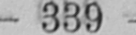- 339 -
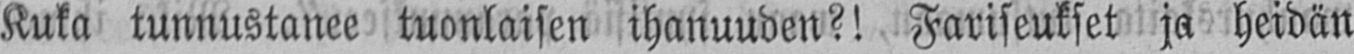Kuka tunnustanee tuonlaisen ihanuuden?! Fariseukset ja heidän
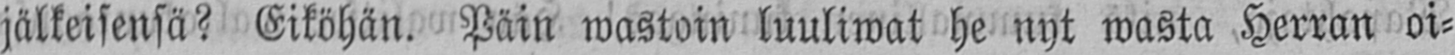jälkeisensä? Eiköhän. Päin wastoin luuliwat he nyt wasta Herran oi-
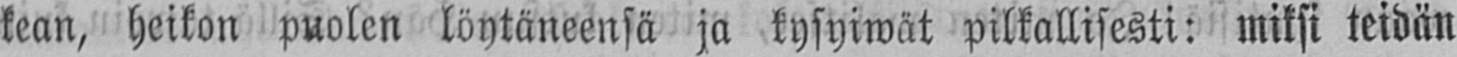kean, heikon puolen löytäneensä ja kysyiwät pilkallisesti: miksi teidän
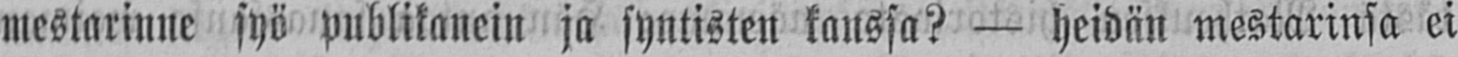mestarinne syö publikanein ja syntisten kanssa? — heidän mestarinsa ei
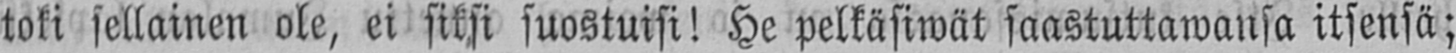toki sellainen ole, ei siksi suostuisi! He pelkäsiwät saastuttawansa itsensä;
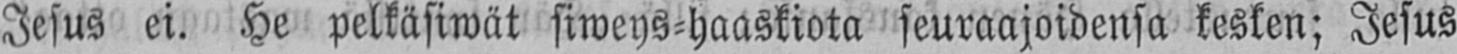Jesus ei. He pelkäsiwät siweys-haaskiota seuraajoidensa kesken; Jesus
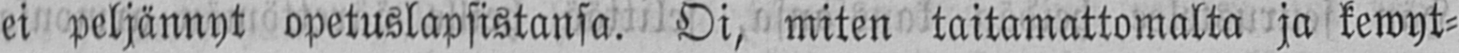ei peljännyt opetuslapsistansa. Oi, miten taitamattomalta ja kewyt-
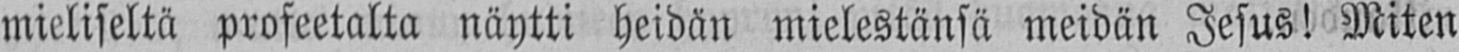mieliseltä profeetalta näytti heidän mielestänsä meidän Jesus! Miten
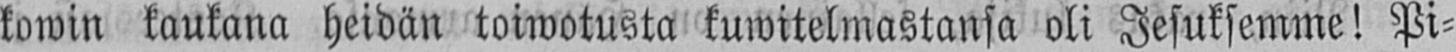kowin kaukana heidän toiwotusta kuwitelmastansa oli Jesuksemme! Pi-
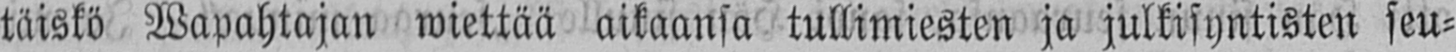täiskö Wapahtajan wiettää aikaansa tullimiesten ja julkisyntisten seu-
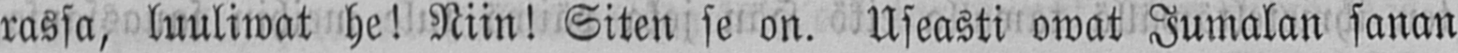rassa, luuliwat he! Niin! Siten se on. Useasti owat Jumalan sanan
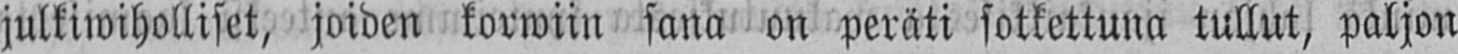julkiwiholliset, joiden korwiin sana on peräti sotkettuna tullut, paljon
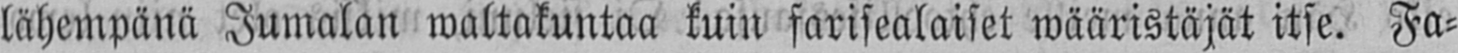lähempänä Jumalan waltakuntaa kuin farisealaiset wääristäjät itse. Fa-
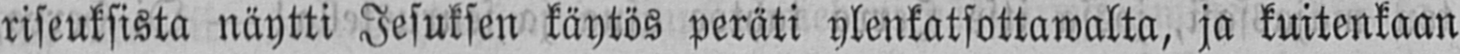riseuksista näytti Jesuksen käytös peräti ylenkatsottawalta, ja kuitenkaan
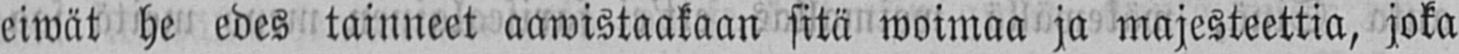eiwät he edes tainneet aawistaakaan sitä woimaa ja majesteettia, joka
